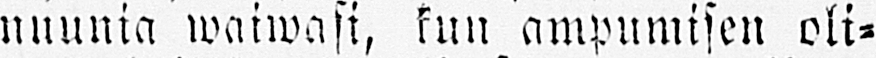nuunia waiwasi, kun ampumisen oli-
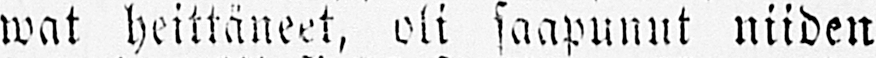wat heittäneet, oli saapunut niiden
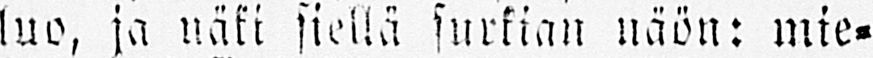luo, ja näki siellä surkian näön: mie-
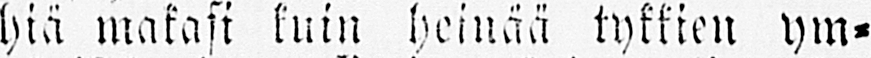hiä makasi kuin heinää tykkien ym-
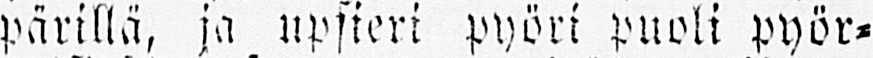pärillä, ja upsieri pyöri puoli pyör-
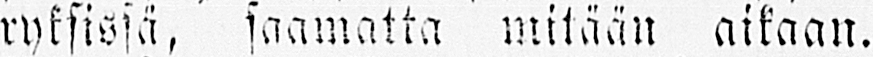ryksissä, saamatta mitään aikaan.
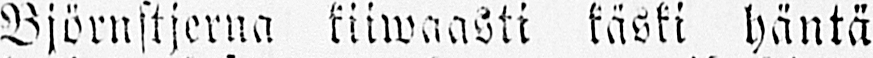Björnstjerna kiiwaasti käski häntä
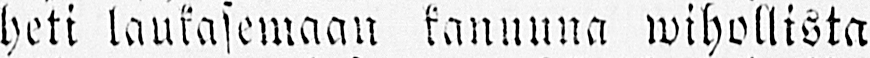heti laukasemaan kanuuna wihollista
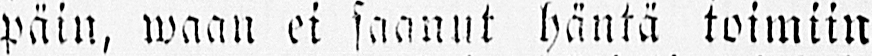päin, waan ei saanut häntä toimiin
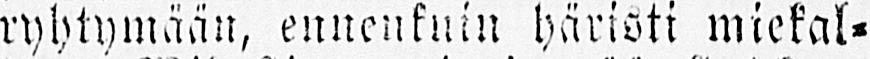ryhtymään, ennenkuin häristi miekal-
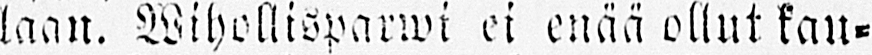laan. Wihollisparwi ei enää ollut kau-
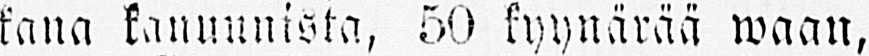kana kanuunista, 50 kyynärää waan,
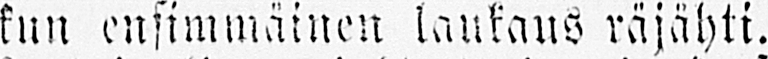kun ensimmäinen laukaus räjähti,
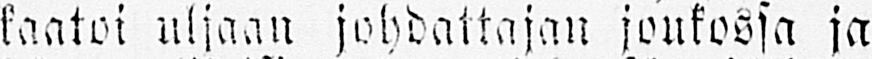kaatoi uljaan johdattajan joukossa ja
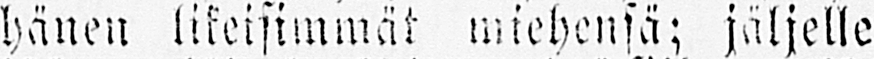hänen likeisimmät miehensä; jäljelle
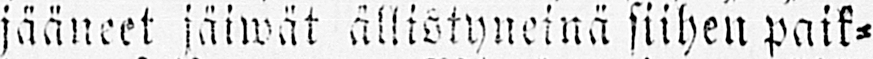jääneet jäiwät ällistyneinä siihen paik-
